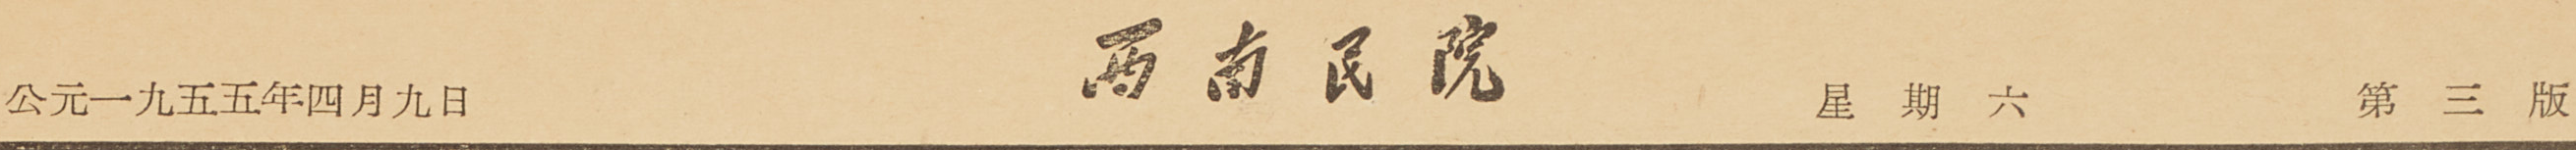公元一九五五年四月九日 西南民院 星期六 第三版
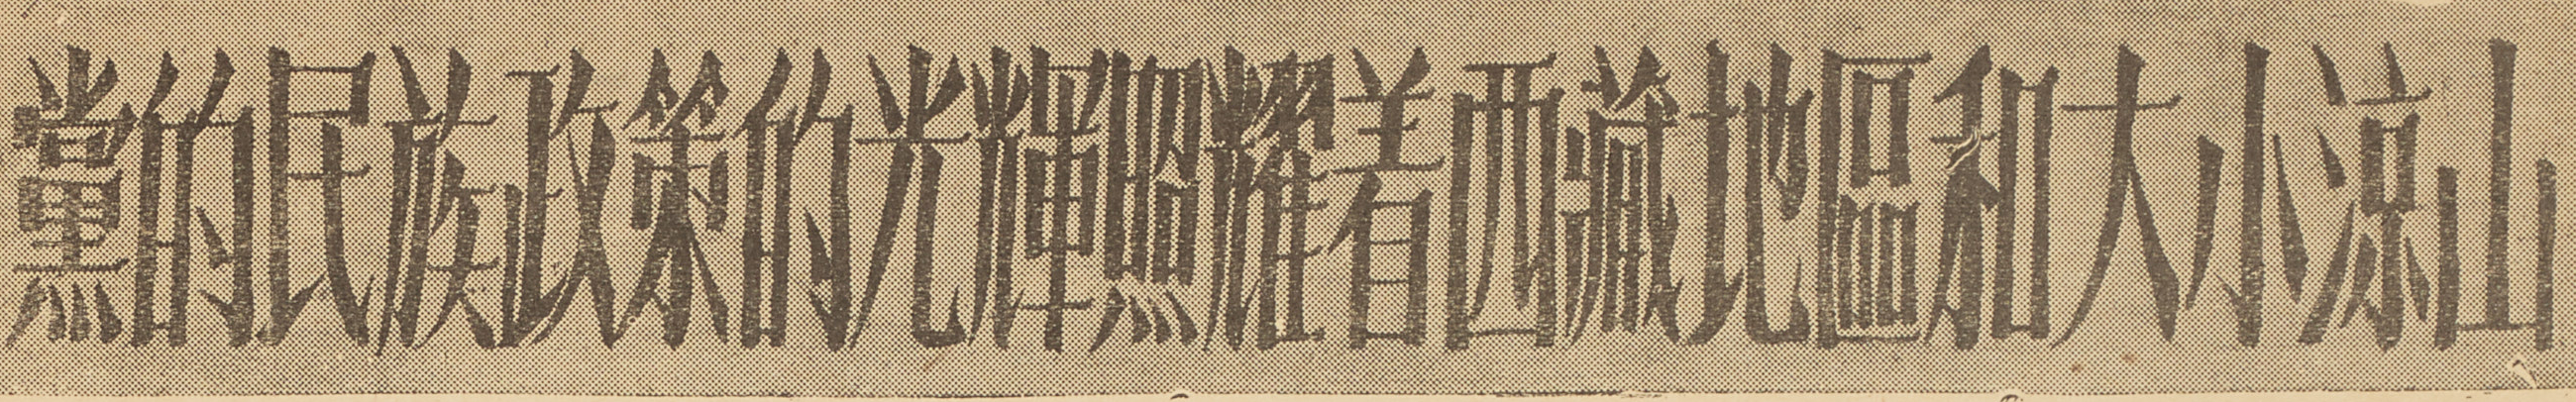黨的民族政策的光輝照耀着西藏地區和大小涼山
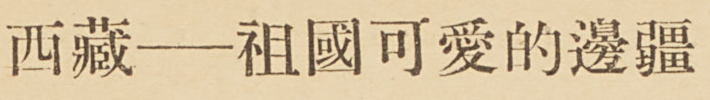西藏——祖國可愛的邊疆
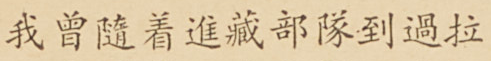我曾隨着進藏部隊到過拉
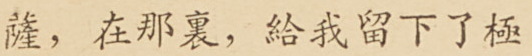薩，在那裏，給我留下了極
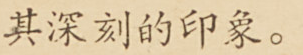其深刻的印象。
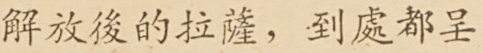解放後的拉薩，到處都呈
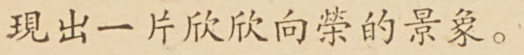現出一片欣欣向榮的景象。
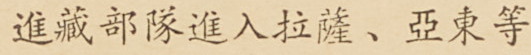進藏部隊進入拉薩、亞東等
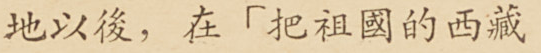地以後，在「把祖國的西藏
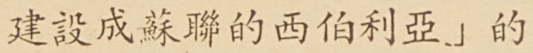建設成蘇聯的西伯利亞」的
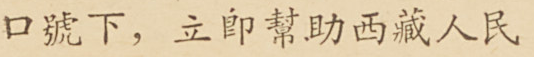口號下，立卽幫助西藏人民
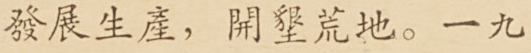發展生產，開墾荒地。一九
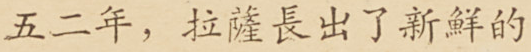五二年，拉薩長出了新鮮的
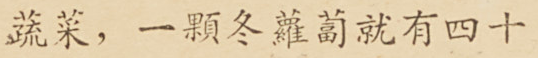蔬菜，一顆冬蘿蔔就有四十
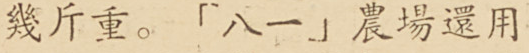幾斤重。「八一」農場還用
